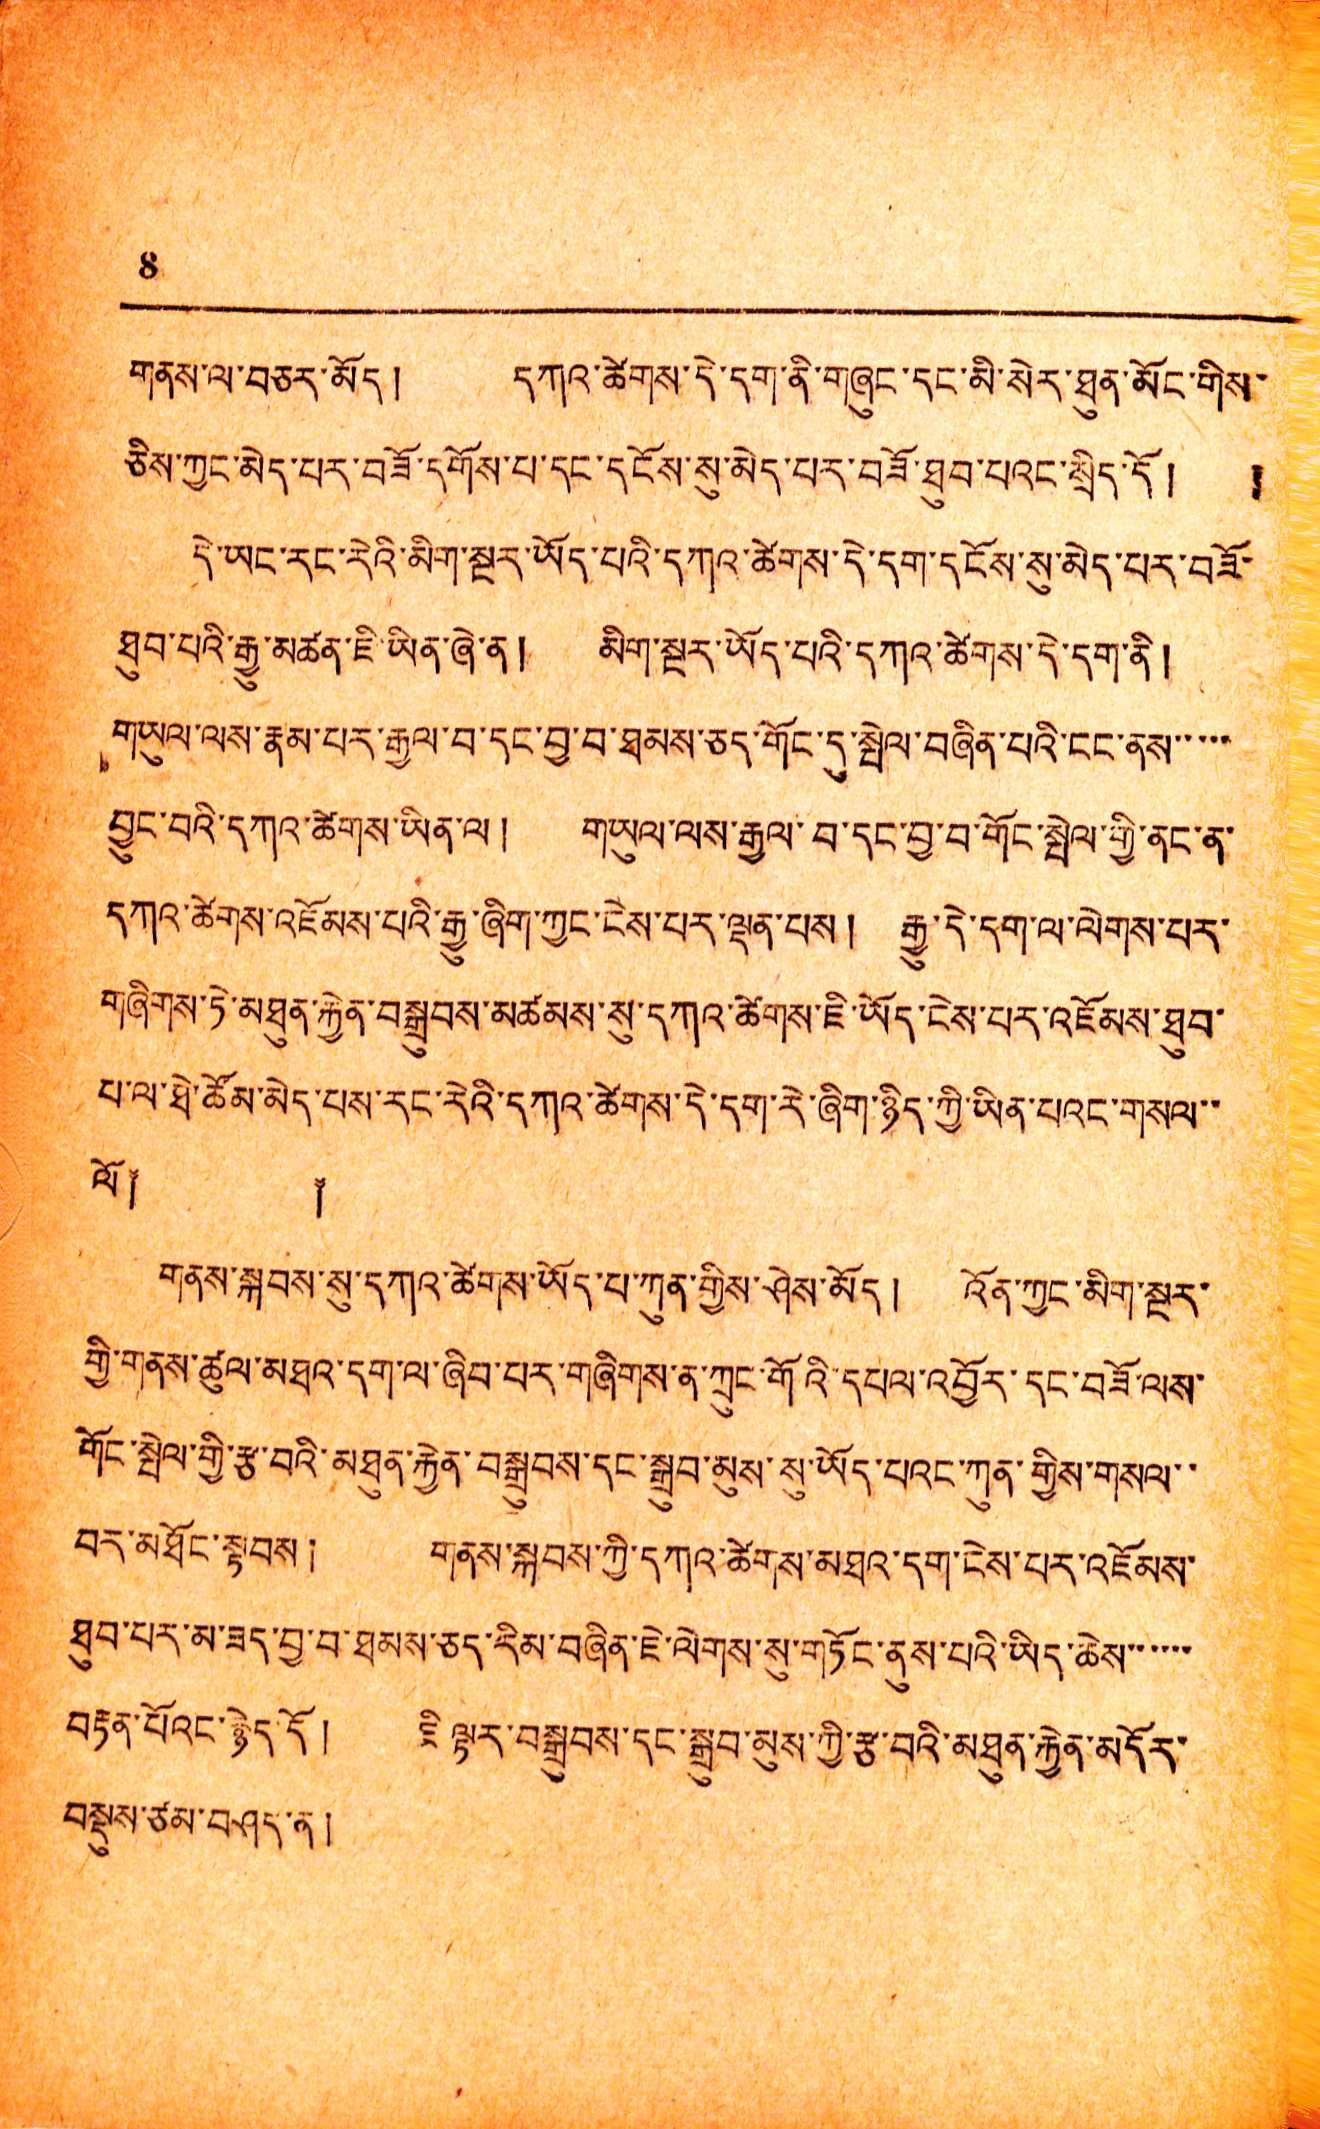8
གནས་ལ་བཅར་མོད། དཀའ་ཚེགས་དེ་དག་ནི་གཞུང་དང་མི་སེར་ཐུན་མོང་གིས་
ཅིས་ཀྱང་མེད་པར་བཟོ་དགོས་པ་དང་དངོས་སུ་མེད་པར་བཟོ་ཐུབ་པའང་སྲིད་དོ། །
དེ་ཡང་རང་རེའི་མིག་སྔར་ཡོད་པའི་དཀའ་ཚེགས་དེ་དག་དངོས་སུ་མེད་པར་བཟོ་
ཐུབ་པའི་རྒྱུ་མཚན་ཇི་ཡིན་ཞེ་ན། མིག་སྔར་ཡོད་པའི་དཀའ་ཚེགས་དེ་དག་ནི།
གཡུལ་ལས་རྣམ་པར་རྒྱལ་བ་དང་བྱ་བ་ཐམས་ཅད་གོང་དུ་སྤེལ་བཞིན་པའི་ངང་ནས་་་་་
བྱུང་བའི་དཀའ་ཚེགས་ཡིན་ལ། གཡུལ་ལས་རྒྱལ་བ་དང་བྱ་བ་གོང་སྤེལ་གྱི་ནང་ན་
དགའ་ཚེགས་འཇོམས་པའི་རྒྱུ་ཞིག་ཀྱང་ངེས་པར་ལྡན་པས། རྒྱུ་དེ་དག་ལ་ལེགས་པར་
གཞིགས་ཏེ་མཐུན་རྐྱེན་བསྒྲུབས་མཚམས་སུ་དགའ་ཚེགས་ཇི་ཡོད་ངེས་པར་འཇོམས་ཐུབ་
པ་ལ་ཐེ་ཚོམ་མེད་པས་རང་རེའི་དཀའ་ཚེགས་དེ་དག་རེ་ཞིག་ཉིད་ཀྱི་ཡིན་པའང་གསལ་་
ལོ༐ ༐
གནས་སྐབས་སུ་དཀའ་ཚེགས་ཡོད་པ་ཀུན་གྱིས་ཤེས་མོད། འོན་ཀྱང་མིག་སྔར་
གྱི་གནས་ཚུལ་མཐའ་དག་ལ་ཞིབ་པར་གཞིགས་ན་ཀྲུང་གོའི་དཔལ་འབྱོར་དང་བཟོ་ལས་
གོང་སྤེལ་གྱི་རྩ་བའི་མཐུན་རྐྱེན་བསྒྲུབས་དང་སྒྲུབ་མུས་སུ་ཡོད་པའང་ཀུན་གྱིས་གསལ་་
བར་མཐོང་སྟགས། གནས་སྐབས་ཀྱི་དཀའ་ཚེགས་མཐའ་དག་ངེས་པར་འཇོམས་
ཐུབ་པར་མ་ཟད་བྱ་བ་ཐམས་ཅད་རིམ་བཞིན་ཇེ་ལེགས་སུ་གཏོང་ནུས་པའི་ཡིད་ཆེས་་་་་་
བརྟན་པོའང་རྙེད་དོ། ཇི ལྟད་བསྒྲུབས་དང་སྒྲུབ་མུས་ཀྱི་རྩ་བའི་མཐུན་རྐྱེན་མདོར་
བསྡུས་ཙམ་བཤན་ན།
